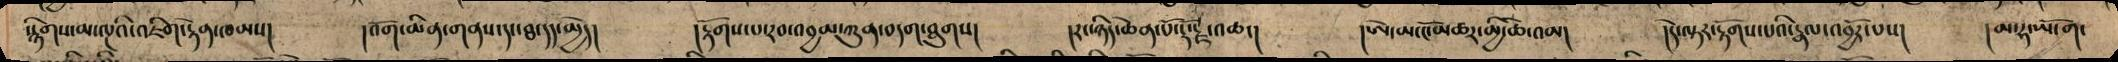སྙིགས་མ་ལྔའི་འཇིག་རྟེན་ཁམས། །འོག་མིན་གནས་དང་ཐ་དད་མྱེད། །རྟོགས་པ་རབ་འབྱམ་ཀུན་བདག་ཐུགས། །རང་ཉིད་ཆེན་པོ་རྡོ་རྗེ་འཆང། །ཨེ་མ་ངོ་མཚར་མྱི་ཆེ་འམ། །དེ་ལྟར་རྟོགས་པའི་རྣལ་འབྱོར་པས། །མ་ཧ་ཡོ་ག་
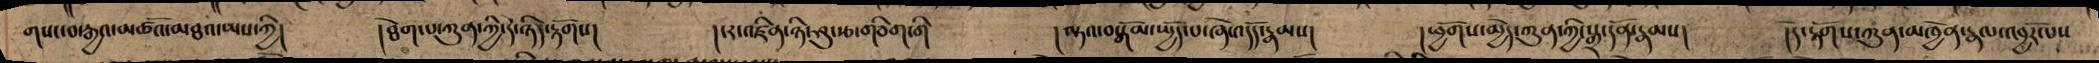གསང་བ་རྒྱའ་མཚོའ་མཐའ་ཡས་ཀྱི། །ཐེག་པ་ཀུན་ཀྱི་དེ་ཉིད་རྟོགས། །ངར་འཛིན་ཉི་ཤུ་རྩ་གཅིག་གི །ལྟའ་བསྒོམ་སྤྱོད་པ་ཞེ་འདོད་རྣམས། །ཕྱོགས་མྱེད་ཀུན་ཀྱི་སྒྲ་དོན་རྣམས། །དེ་རྟོགས་ཀུན་མཁྱེན་རྣལ་འབྱོར་པས
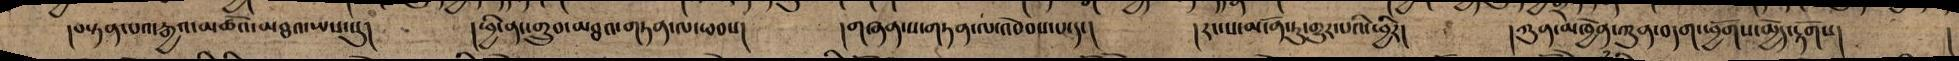།བསྟན་པའ་རྒྱའ་མཚོའ་མཐའ་ཡས་སུ། །ཕྱི་ནང་གྲུབ་མཐའ་གཏན་ལ་ཕབས། །གཞན་ས་གཏན་ལ་འབེབས་པ་དང། །རང་ས་མངོན་ཏུ་གྱུར་པའི་ཕྱིར། །ཀུན་མཁྱེན་ཀུན་བདག་ཕྱོགས་མྱེད་རྟོགས། །
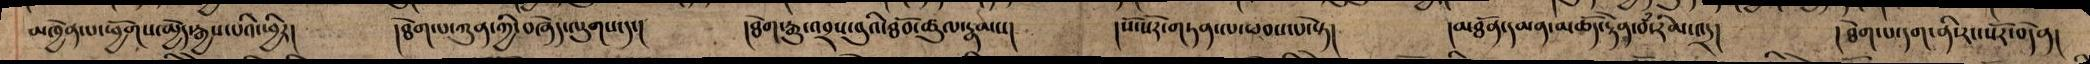མཁྱེན་པ་ཕྱོགས་མྱེད་རྒྱས་པའི་ཕྱིར། །ཐེག་པ་ཀུན་ཀྱི་བཞེད་ལུགས་དང། །ཐེག་རྒྱུ་འབྲས་བུའི་ཐོབ་ཚཱུལ་རྣམས། །སོ་སོར་གཏན་ལ་ཕབས་པ་སྟེ། །མཐོན་དམན་མཆོད་རྟེན་བཾ་རིམ་འདྲ། །ཐེག་པ་དག་ནི་རང་སོར་བདེན།
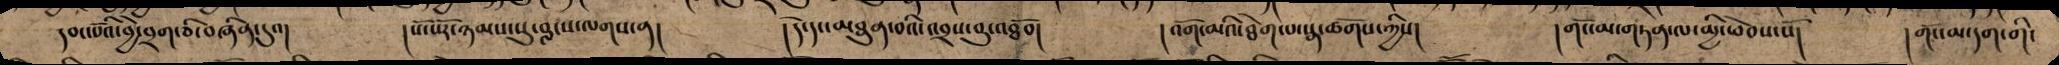དབང་པོའི་བྱེ་བྲག་ཅི་བཞིན་དུའ། །སོ་སོར་ཉམས་སུ་བླངས་ལགས་ན། །དེ་དང་མཐུན་བའི་འབྲས་བུ་འཐོབ། །འོག་མའི་ཐེག་པ་སྣ་ཚོགས་ཀྱིས། །གོང་མ་གཏན་ལ་མྱི་ཕེབས་སོ། །གོང་མ་དག་གི་
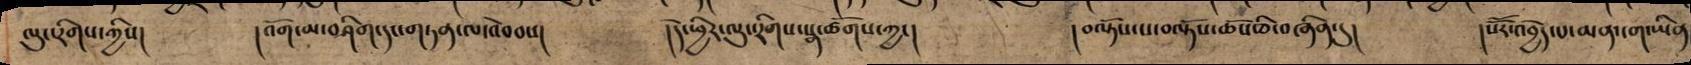ལུང་རིགས་ཀྱིས། །འོག་མིན་བཤིག་དང་གཏན་ལ་འབེབས། །དེ་ཕྱིར་ལུང་རིགས་སྣ་ཚོགས་ཀྱང། །བལྟོས་ས་བལྟོས་ཆོས་ཅི་བཞིན་དུ། །སོོར་འབྱེད་པ་མན་ངག་ཡིན
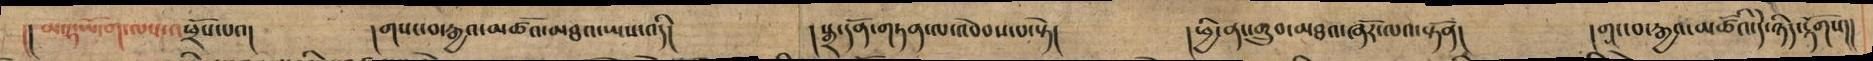།།མ་ཧ་ཡོ་ག་ལས་འཕྲོས་པའ། །གསང་བ་རྒྱའ་མཚོའ་མཐའ་ཡས་འདི། །སྒྲ་དོན་གཏན་ལ་འབེབས་པ་སྟེ། །ཕྱི་ནང་གྲུབ་མཐའ་ཞོར་ལའ་སྟོན། །གང་བ་རྒྱའ་མཚོའི་དེ་ཉིད་རྟོགས།།
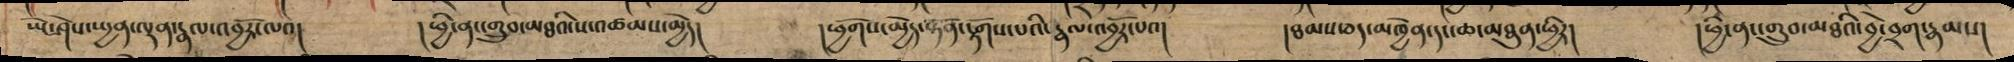ཡེ་ཤེས་སྤྱན་ལྡན་རྣལ་འབྱོར་ལའ། འཕྱི་ནང་གྲུབ་མཐའི་ས་འཚམས་མྱེད། །ཕྱོགས་མྱེད་སྟོན་རྟོགས་པའི་རྣལ་འབྱོར་པའ། །ཐམས་ཅད་མཁྱེན་དང་ཆ་མཐུན་ཕྱིར། །ཕྱི་ནང་གྲུབ་མཐའི་བྱེ་བྲག་རྣམས།
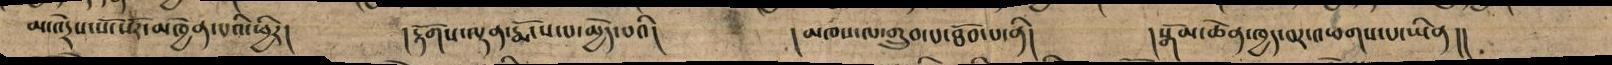མ་འདྲེས་སོ་སོར་མཁྱེན་པའི་ཕྱིར། །རྟོགས་ལྡན་རྨོངས་པ་མྱེད་པའི། །མཁས་ལ་གྲུབ་པ་ཐོབ་པ་ནི། །སྒོམ་ཆེན་ཁྱད་བར་འཕགས་པ་ཡིན།།
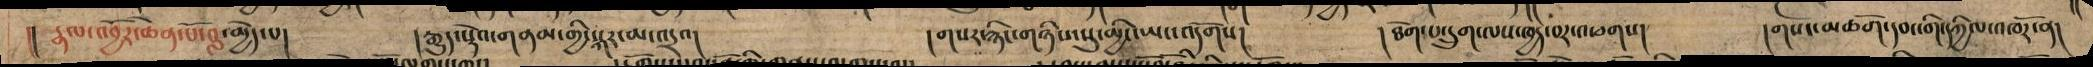།། རྣལ་འབྱོར་ཆེན་པོ་བླ་མྱེད་པ། །རྒྱུད་སྡེའ་གནམ་གྱི་སྐར་མ་འདྲའ། །གསར་རྙིང་གཉིས་སུ་མྱིང་ཡང་འདོགས། །ཐེག་པ་དྲུག་ལས་ཁྱད་པར་འཕགས། །གསང་མཆོག་དབང་གི་དཀྱིལ་འཁོར་ན།
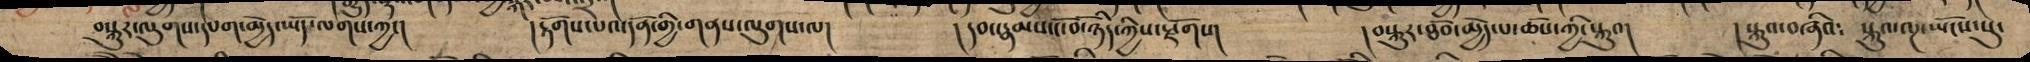བསྐུར་ལུགས་དཔག་མྱེད་ཡོད་ལགས་ཀྱང། །རྟོགས་པའ་དོན་གྱི་གནས་ལུགས་ལ། །དབང་རྣམས་ངོ་བོ་ཉིད་ཀྱིས་སྫོགས། །བསྐུར་ཐོབ་མྱེད་པ་ཆོས་ཀྱི་སྐུའ། །སྐུའ་བཞིའ༴ སྐུའ་ལྔ་ཡོངས་སུ་
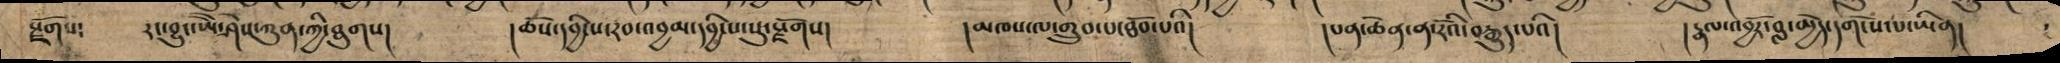སྫོགས༴ རང་བྱུང་ཡཻ་ཤེས་ཀུན་ཀྱི་ཐུགས། །ཆོས་དབྱིངས་རབ་འབྱམ་དབྱིངས་སུ་སྫོགས། །མཁས་ལ་གྲུབ་པ་ཐོབ་པའི། །པན་ཆེན་ན་རོའི་བརྒྱུད་པའི། །རྣལ་འབྱོར་བླ་མྱེད་དགོངས་པ་ཡིན།
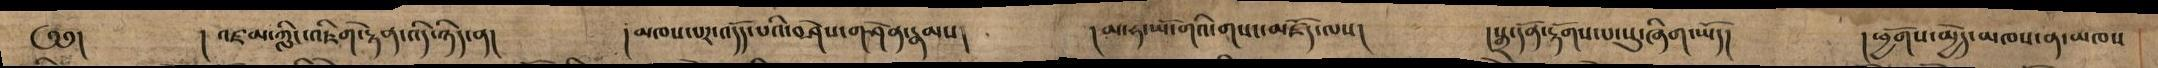༄༅། །འཛམ་ཀླིང་འཇིག་རྟེན་འདི་ཉིད་ན། །མཁས་པར་འདོད་པའི་བཤེས་གཤེན་རྣམས། །མ་ཧ་ཡོ་གའི་གསང་མཛོད་ལས། །སྒྲ་དོན་རྟོགས་པ་སུ་ཞིག་ཡོད། །ཕྱོགས་མྱེད་མཁས་ན་མཁས
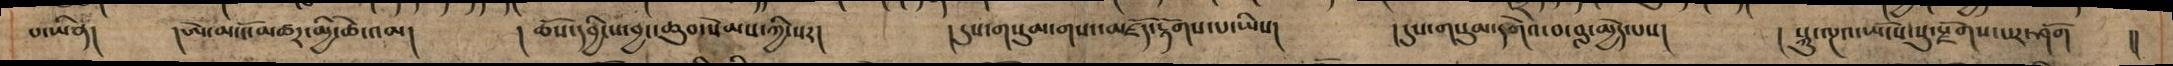པ་ཡིན། །ཨེ་མ་ངོ་མཚར་མྱི་ཆེ་འམ། །ཆོས་དབྱིངས་བྱང་ཆུབ་སེམས་ཀྱི་སར། །དུས་གསུམ་གསང་མཛོད་རྟོགས་པ་ཡིས། །དུས་གསུམ་དགེའ་བ་བླ་མྱེད་པས། །སྐུ་ལྔའ་ཡོངས་སུ་སྫོགས་པར་ཤོག །།
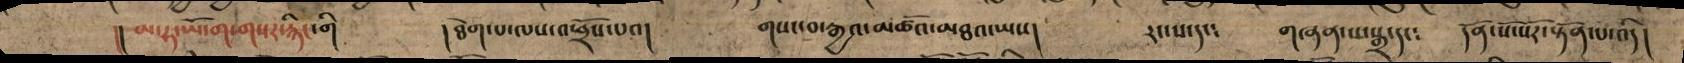།།མ་ཧ་ཡོ་ག་གསར་རྙོང་གི །ཐེག་པ་ལས་འཕྲོས་པའ། གསང་བ་རྒྱའ་མཚོའ་མཐའ་ཡས། རང་ས་དང༴ གཞན་པ་སྒྲ་དང༴ དོན་སོ་སོར་སྟོན་པ་འདི།
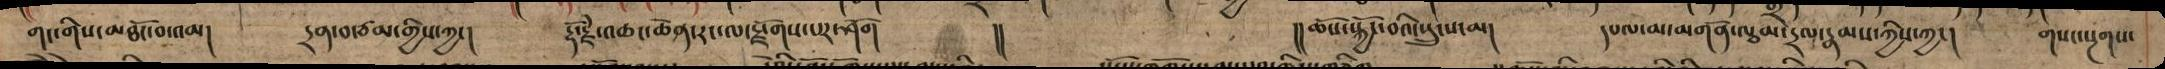གང་གིས་མཐོང་བ་འམ། དྲན་བ་ཙམ་གྱིས་ཀྱང། རྡོ་རྗེ་འཆང་ཆེན་རང་ལ་སྫོགས་པར་ཤོག །། །།ཆོས་སྐྱོང་བའི་སྲུངས་མ། དཔལ་མ་མགོན་ལྕམ་དྲལ་རྣམས་ཀྱིས་ཀྱང། གསང་སྔགས་
